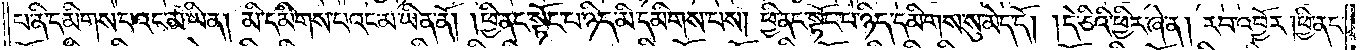པ་ནི་དམིགས་པའང་མ་ཡིན། མི་དམིགས་པའང་མ་ཡིན་ནོ། །ཕྱི་ནང་སྟོང་པ་ཉིད་མི་དམིགས་པས། ཕྱི་ནང་སྟོང་པ་ཉིད་དམིགས་སུ་མེད་དོ། །དེ་ཅིའི་ཕྱིར་ཞེ་ན། རབ་འབྱོར། ཕྱི་ནང་
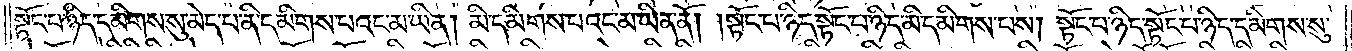སྟོང་པ་ཉིད་དམིགས་སུ་མེད་པ་ནི་དམིགས་པའང་མ་ཡིན། མི་དམིགས་པའང་མ་ཡིན་ནོ། །སྟོང་པ་ཉིད་སྟོང་པ་ཉིད་མི་དམིགས་པས། སྟོང་པ་ཉིད་སྟོང་པ་ཉིད་དམིགས་སུ་
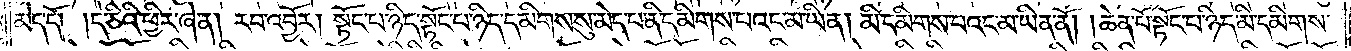མེད་དོ། །དེ་ཅིའི་ཕྱིར་ཞེ་ན། རབ་འབྱོར། སྟོང་པ་ཉིད་སྟོང་པ་ཉིད་དམིགས་སུ་མེད་པ་ནི་དམིགས་པའང་མ་ཡིན། མི་དམིགས་པའང་མ་ཡིན་ནོ། །ཆེན་པོ་སྟོང་པ་ཉིད་མི་དམིགས་
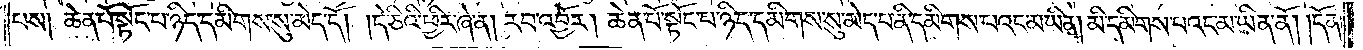པས། ཆེན་པོ་སྟོང་པ་ཉིད་དམིགས་སུ་མེད་དོ། །དེ་ཅིའི་ཕྱིར་ཞེ་ན། རབ་འབྱོར། ཆེན་པོ་སྟོང་པ་ཉིད་དམིགས་སུ་མེད་པ་ནི་དམིགས་པའང་མ་ཡིན། མི་དམིགས་པའང་མ་ཡིན་ནོ། །དོན་
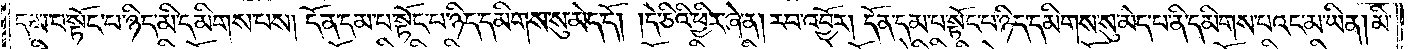དམ་པ་སྟོང་པ་ཉིད་མི་དམིགས་པས། དོན་དམ་པ་སྟོང་པ་ཉིད་དམིགས་སུ་མེད་དོ། །དེ་ཅིའི་ཕྱིར་ཞེ་ན། རབ་འབྱོར། དོན་དམ་པ་སྟོང་པ་ཉིད་དམིགས་སུ་མེད་པ་ནི་དམིགས་པའང་མ་ཡིན། མི་
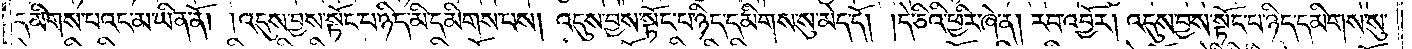དམིགས་པའང་མ་ཡིན་ནོ། །འདུས་བྱས་སྟོང་པ་ཉིད་མི་དམིགས་པས། འདུས་བྱས་སྟོང་པ་ཉིད་དམིགས་སུ་མེད་དོ། །དེ་ཅིའི་ཕྱིར་ཞེ་ན། རབ་འབྱོར། འདུས་བྱས་སྟོང་པ་ཉིད་དམིགས་སུ་
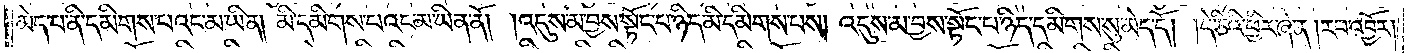མེད་པ་ནི་དམིགས་པའང་མ་ཡིན། མི་དམིགས་པའང་མ་ཡིན་ནོ། །འདུས་མ་བྱས་སྟོང་པ་ཉིད་མི་དམིགས་པས། འདུས་མ་བྱས་སྟོང་པ་ཉིད་དམིགས་སུ་མེད་དོ། །དེ་ཅིའི་ཕྱིར་ཞེ་ན། རབ་འབྱོར།
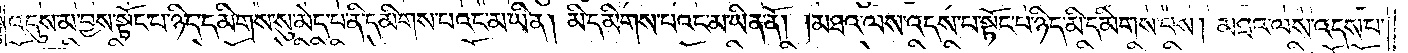འདུས་མ་བྱས་སྟོང་པ་ཉིད་དམིགས་སུ་མེད་པ་ནི་དམིགས་པའང་མ་ཡིན། མི་དམིགས་པའང་མ་ཡིན་ནོ། །མཐའ་ལས་འདས་པ་སྟོང་པ་ཉིད་མི་དམིགས་པས། མཐའ་ལས་འདས་པ་
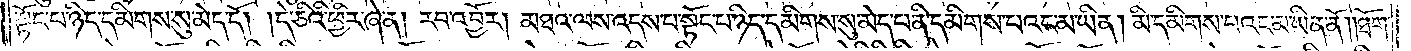སྟོང་པ་ཉིད་དམིགས་སུ་མེད་དོ། །དེ་ཅིའི་ཕྱིར་ཞེ་ན། རབ་འབྱོར། མཐའ་ལས་འདས་པ་སྟོང་པ་ཉིད་དམིགས་སུ་མེད་པ་ནི་དམིགས་པའང་མ་ཡིན། མི་དམིགས་པའང་མ་ཡིན་ནོ། །ཐོག་
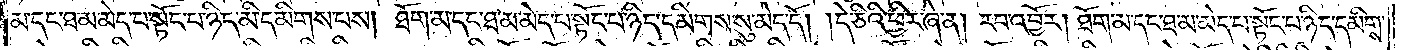མ་དང་ཐ་མ་མེད་པ་སྟོང་པ་ཉིད་མི་དམིགས་པས། ཐོག་མ་དང་ཐ་མ་མེད་པ་སྟོང་པ་ཉིད་དམིགས་སུ་མེད་དོ། །དེ་ཅིའི་ཕྱིར་ཞེ་ན། རབ་འབྱོར། ཐོག་མ་དང་ཐ་མ་མེད་པ་སྟོང་པ་ཉིད་དམིགས་
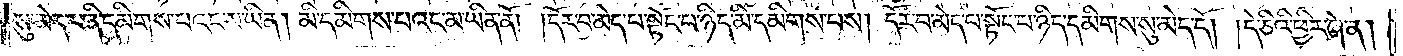སུ་མེད་པ་ནི་དམིགས་པའང་མ་ཡིན། མི་དམིགས་པའང་མ་ཡིན་ནོ། །དོར་བ་མེད་པ་སྟོང་པ་ཉིད་མི་དམིགས་པས། དོར་བ་མེད་པ་སྟོང་པ་ཉིད་དམིགས་སུ་མེད་དོ། །དེ་ཅིའི་ཕྱིར་ཞེ་ན།
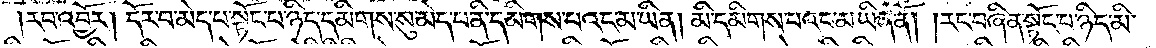རབ་འབྱོར། དོར་བ་མེད་པ་སྟོང་པ་ཉིད་དམིགས་སུ་མེད་པ་ནི་དམིགས་པའང་མ་ཡིན། མི་དམིགས་པའང་མ་ཡིན་ནོ། །རང་བཞིན་སྟོང་པ་ཉིད་མི་
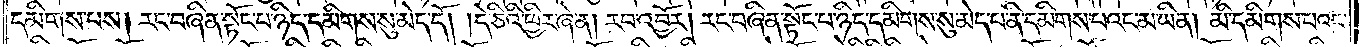དམིགས་པས། རང་བཞིན་སྟོང་པ་ཉིད་དམིགས་སུ་མེད་དོ། །དེ་ཅིའི་ཕྱིར་ཞེ་ན། རབ་འབྱོར། རང་བཞིན་སྟོང་པ་ཉིད་དམིགས་སུ་མེད་པ་ནི་དམིགས་པའང་མ་ཡིན། མི་དམིགས་པའང་
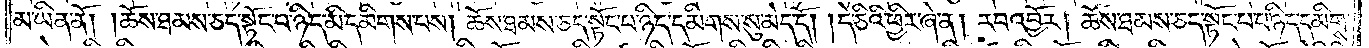མ་ཡིན་ནོ། །ཆོས་ཐམས་ཅད་སྟོང་པ་ཉིད་མི་དམིགས་པས། ཆོས་ཐམས་ཅད་སྟོང་པ་ཉིད་དམིགས་སུ་མེད་དོ། །དེ་ཅིའི་ཕྱིར་ཞེ་ན། རབ་འབྱོར། ཆོས་ཐམས་ཅད་སྟོང་པ་ཉིད་དམིགས་
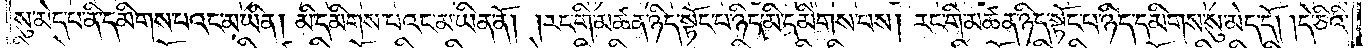སུ་མེད་པ་ནི་དམིགས་པའང་མ་ཡིན། མི་དམིགས་པའང་མ་ཡིན་ནོ། །རང་གི་མཚན་ཉིད་སྟོང་པ་ཉིད་མི་དམིགས་པས། རང་གི་མཚན་ཉིད་སྟོང་པ་ཉིད་དམིགས་སུ་མེད་དོ། །དེ་ཅིའི་
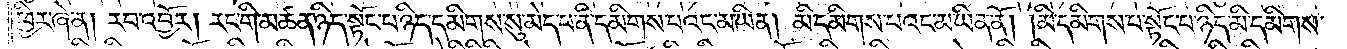ཕྱིར་ཞེ་ན། རབ་འབྱོར། རང་གི་མཚན་ཉིད་སྟོང་པ་ཉིད་དམིགས་སུ་མེད་པ་ནི་དམིགས་པའང་མ་ཡིན། མི་དམིགས་པའང་མ་ཡིན་ནོ། །མི་དམིགས་པ་སྟོང་པ་ཉིད་མི་དམིགས་
